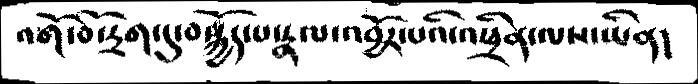འགོ་བོ་དྲག་དུ་བསྐྱོད་པ་རྣལ་འབྱོར་པའི་འཕྲིན་ལས་ཡིན།
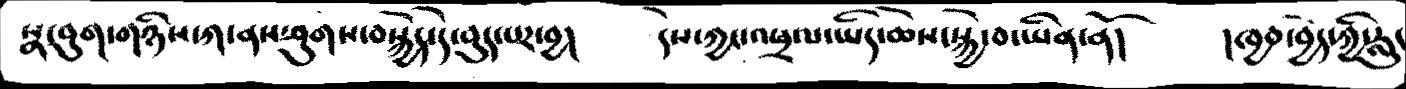སྣ་བུག་གཉིས་ཀ་ནས་ཤུགས་བསྐྱེད་དེ་བུད་པར་བྱ།   དེས་ཀྱང་འཕྲལ་ཡིད་ཆེས་སྐྱེ་བ་ཡིན་ནོ།   །ཁྱབ་བྱེད་ཀྱི་རླུང་
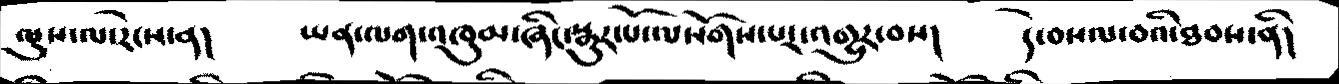ལུས་ལ་རེངས་ན།   ཡན་ལག་འཁུམ་ཞིང་སྒུར་པོ་ལསོགས་པར་འགྱུར་བས།   དེ་བསལ་བའི་ཐབས་ནི།
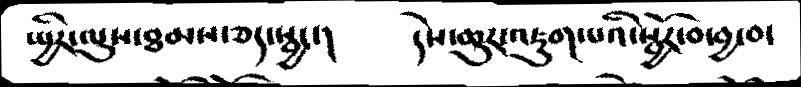སྤྱིར་ལུས་ཐམས་ཅད་སྦྱང་།   དེས་ཆུར་འཇུག་པའི་སྦྱོར་བ་བྱ་བ་
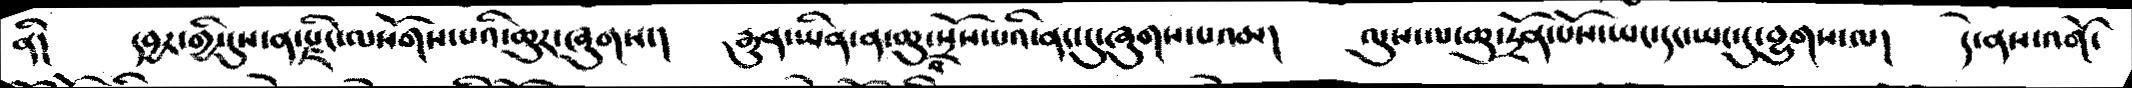ནི།   དབྱར་གྱི་དུས་ན་རྫིང་ལསོགས་པའི་ཆུར་ཞུགས།  རྒྱུན་ཡིན་ན་ཆུ་བསྲོས་པའི་ནང་དུ་ཞུགས་པའམ།  ལུས་ལ་ཆུ་དྲོན་པོས་ཡང་དང་ཡང་དུ་བྱུགས་ལ།  དེ་ནས་འགོ་
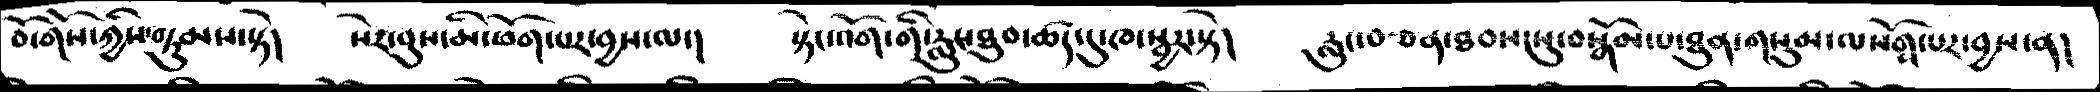བོ་གོས་ཀྱིས་བཏུམས་སྟེ།   སེར་བུས་མི་ཕོག་པར་བྱས་ལ།   སྟེང་འོག་གི་རླུང་ཐུབ་ཚད་དུ་ཁ་སྦྱར་སྟེ།   རླུང་བཙན་ཐབས་སུ་བསྒོམ་པ་ཐུན་གསུམ་ལསོགས་པར་བྱས་ན།
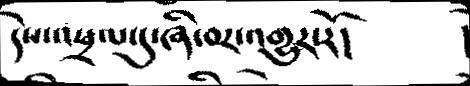དེས་འཕྲལ་དུ་ཞི་བར་འགྱུར་རོ།
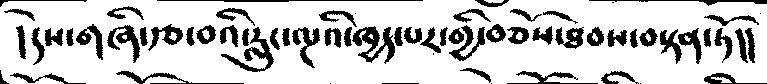།དེས་གཞི་རྩ་བའི་རླུང་ལྔའི་ཁྱད་པར་གྱི་བཅོས་ཐབས་བསྟན་ཏོ།།
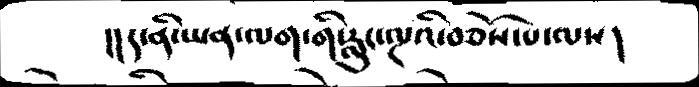།།ད་ནི་ཡན་ལག་གི་རླུང་ལྔའི་བཅོས་པ་ལས།
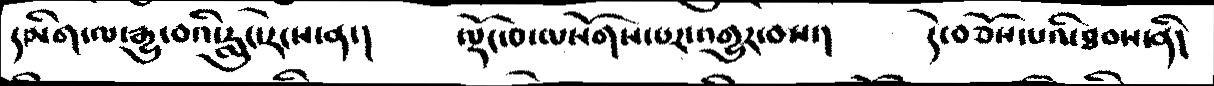དམིག་ལ་རྒྱུ་བའི་རླུང་རེངས་ན་།   ལྡོང་བ་ལསོགས་པར་འགྱུར་བས་།   དེ་བཅོས་པའི་ཐབས་ནི།
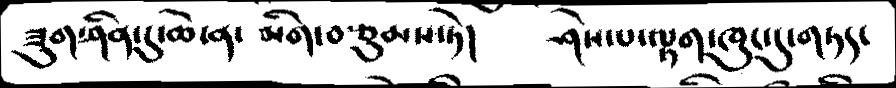ཟུག་ཤིན་དུ་ཆེ་ན་མིག་བཙུམས་ཏེ།   ཤེས་པ་ལྟག་ཁུང་དུ་གཏད་
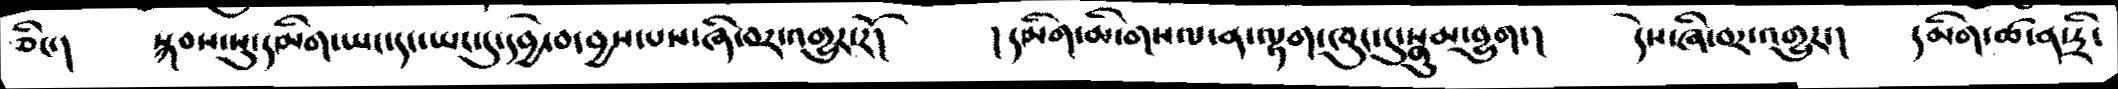ཅིང་།   སྐབས་སུ་དམིག་ཡང་དང་ཡང་དུ་དབྱེ་བ་བྱས་པས་ཞི་བར་འགྱུར་རོ།   །དམིག་མི་གསལ་ན་ལྟག་ཁུང་དུ་སྣུམ་བྱུག་།   དེས་ཞི་བར་འགྱུར་།   དམིག་ཚ་ན་དྲི་
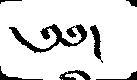༄༅།
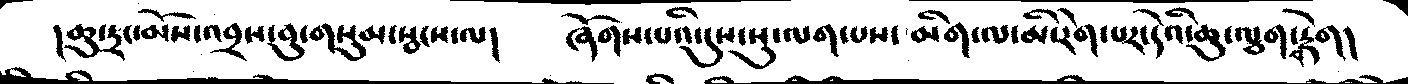།ཆུ་དྲང་མོས་འབྲས་བུ་གསུམ་སྦངས་ལ།   ཞོགས་པའི་དུས་སུ་ལག་པས་མིག་ལ་མི་རེག་པར་དེའི་ཆུ་ལྕག་བརྡེག།
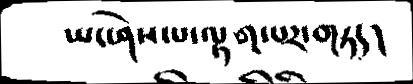ཡང་ཤེས་པ་ལྟག་པར་གཏད།
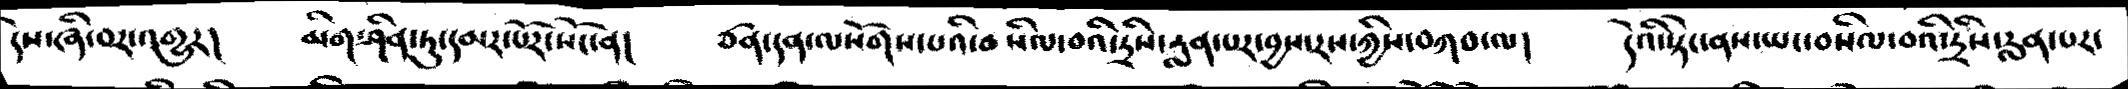དེས་ཞི་བར་འགྱུར།   མིག་ཤིན་ཏུ་དམར་པོར་སོང་ན།  ཙན་དན་ལསོགས་པའི་བསིལ་བའི་དྲིས་རླན་པར་བྱས་རས་ཀྱིས་བཀབ་ལ།  དེའི་སྟེང་ནས་ཡང་བསིལ་བའི་དྲིས་རླན་པར་
